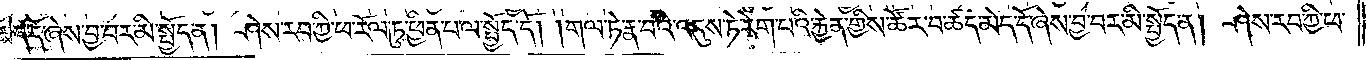མེད་དོ་ཞེས་བྱ་བར་མི་སྤྱོད་ན། ཤེས་རབ་ཀྱི་ཕ་རོལ་ཏུ་ཕྱིན་པ་ལ་སྤྱོད་དོ། །གལ་ཏེ་རྣ་བའི་འདུས་ཏེ་རེག་པའི་རྐྱེན་གྱིས་ཚོར་བ་ཚད་མེད་དོ་ཞེས་བྱ་བར་མི་སྤྱོད་ན། ཤེས་རབ་ཀྱི་ཕ་
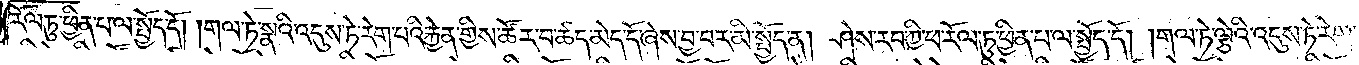རོལ་ཏུ་ཕྱིན་པ་ལ་སྤྱོད་དོ། །གལ་ཏེ་སྣའི་འདུས་ཏེ་རེག་པའི་རྐྱེན་གྱིས་ཚོར་བ་ཚད་མེད་དོ་ཞེས་བྱ་བར་མི་སྤྱོད་ན། ཤེས་རབ་ཀྱི་ཕ་རོལ་ཏུ་ཕྱིན་པ་ལ་སྤྱོད་དོ། །གལ་ཏེ་ལྕེའི་འདུས་ཏེ་རེག་
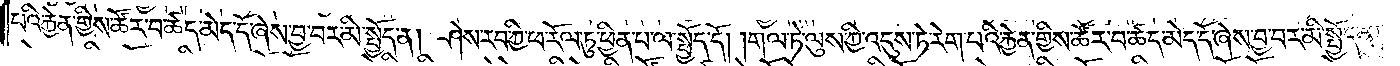པའི་རྐྱེན་གྱིས་ཚོར་བ་ཚད་མེད་དོ་ཞེས་བྱ་བར་མི་སྤྱོད་ན། ཤེས་རབ་ཀྱི་ཕ་རོལ་ཏུ་ཕྱིན་པ་ལ་སྤྱོད་དོ། །གལ་ཏེ་ལུས་ཀྱི་འདུས་ཏེ་རེག་པའི་རྐྱེན་གྱིས་ཚོར་བ་ཚད་མེད་དོ་ཞེས་བྱ་བར་མི་སྤྱོད་ན།
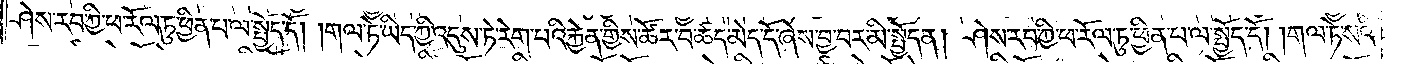ཤེས་རབ་ཀྱི་ཕ་རོལ་ཏུ་ཕྱིན་པ་ལ་སྤྱོད་དོ། །གལ་ཏེ་ཡིད་ཀྱི་འདུས་ཏེ་རེག་པའི་རྐྱེན་གྱིས་ཚོར་བ་ཚད་མེད་དོ་ཞེས་བྱ་བར་མི་སྤྱོད་ན། ཤེས་རབ་ཀྱི་ཕ་རོལ་ཏུ་ཕྱིན་པ་ལ་སྤྱོད་དོ། །གལ་ཏེ་སའི་
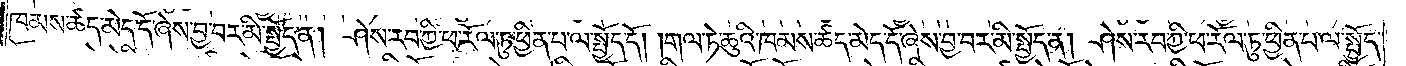ཁམས་ཚད་མེད་དོ་ཞེས་བྱ་བར་མི་སྤྱོད་ན། ཤེས་རབ་ཀྱི་ཕ་རོལ་ཏུ་ཕྱིན་པ་ལ་སྤྱོད་དོ། །གལ་ཏེ་ཆུའི་ཁམས་ཚད་མེད་དོ་ཞེས་བྱ་བར་མི་སྤྱོད་ན། ཤེས་རབ་ཀྱི་ཕ་རོལ་ཏུ་ཕྱིན་པ་ལ་སྤྱོད་
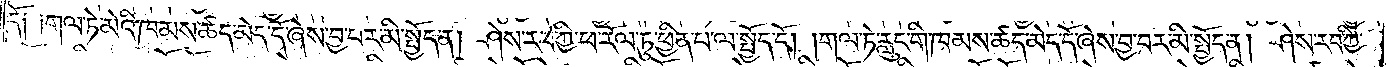དོ༑ ༑གལ་ཏེ་མེའི་ཁམས་ཚད་མེད་དོ་ཞེས་བྱ་བར་མི་སྤྱོད་ན། ཤེས་རབ་ཀྱི་ཕ་རོལ་ཏུ་ཕྱིན་པ་ལ་སྤྱོད་དོ། །གལ་ཏེ་རླུང་གི་ཁམས་ཚད་མེད་དོ་ཞེས་བྱ་བར་མི་སྤྱོད་ན། ཤེས་རབ་ཀྱི་
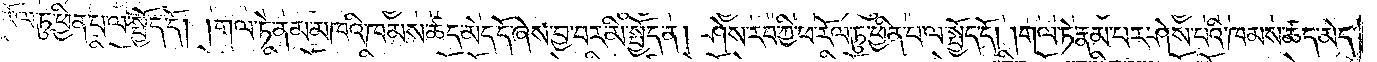ཕ་རོལ་ཏུ་ཕྱིན་པ་ལ་སྤྱོད་དོ། །གལ་ཏེ་ནམ་མཁའི་ཁམས་ཚད་མེད་དོ་ཞེས་བྱ་བར་མི་སྤྱོད་ན། ཤེས་རབ་ཀྱི་ཕ་རོལ་ཏུ་ཕྱིན་པ་ལ་སྤྱོད་དོ། །གལ་ཏེ་རྣམ་པར་ཤེས་པའི་ཁམས་ཚད་མེད་
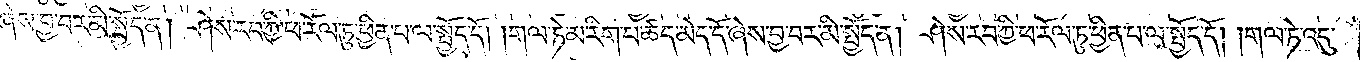དོ་ཞེས་བྱ་བར་མི་སྤྱོད་ན། ཤེས་རབ་ཀྱི་ཕ་རོལ་ཏུ་ཕྱིན་པ་ལ་སྤྱོད་དོ། །གལ་ཏེ་མ་རིག་པ་ཚད་མེད་དོ་ཞེས་བྱ་བར་མི་སྤྱོད་ན། ཤེས་རབ་ཀྱི་ཕ་རོལ་ཏུ་ཕྱིན་པ་ལ་སྤྱོད་དོ། །གལ་ཏེ་འདུ་
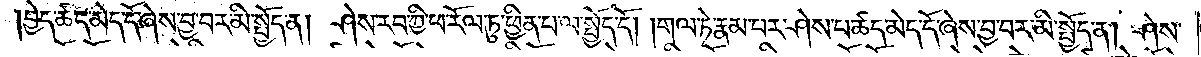བྱེད་ཚད་མེད་དོ་ཞེས་བྱ་བར་མི་སྤྱོད་ན། ཤེས་རབ་ཀྱི་ཕ་རོལ་ཏུ་ཕྱིན་པ་ལ་སྤྱོད་དོ། །གལ་ཏེ་རྣམ་པར་ཤེས་པ་ཚད་མེད་དོ་ཞེས་བྱ་བར་མི་སྤྱོད་ན། ཤེས་
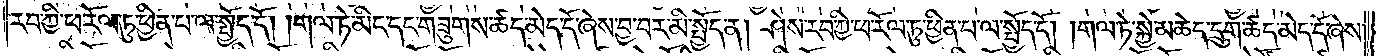རབ་ཀྱི་ཕ་རོལ་ཏུ་ཕྱིན་པ་ལ་སྤྱོད་དོ། །གལ་ཏེ་མིང་དང་གཟུགས་ཚད་མེད་དོ་ཞེས་བྱ་བར་མི་སྤྱོད་ན། ཤེས་རབ་ཀྱི་ཕ་རོལ་ཏུ་ཕྱིན་པ་ལ་སྤྱོད་དོ། །གལ་ཏེ་སྐྱེ་མཆེད་དྲུག་ཚད་མེད་དོ་ཞེས་
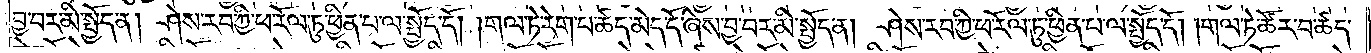བྱ་བར་མི་སྤྱོད་ན། ཤེས་རབ་ཀྱི་ཕ་རོལ་ཏུ་ཕྱིན་པ་ལ་སྤྱོད་དོ། །གལ་ཏེ་རེག་པ་ཚད་མེད་དོ་ཞེས་བྱ་བར་མི་སྤྱོད་ན། ཤེས་རབ་ཀྱི་ཕ་རོལ་ཏུ་ཕྱིན་པ་ལ་སྤྱོད་དོ། །གལ་ཏེ་ཚོར་བ་ཚད་
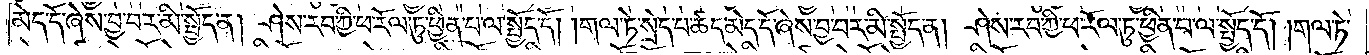མེད་དོ་ཞེས་བྱ་བར་མི་སྤྱོད་ན། ཤེས་རབ་ཀྱི་ཕ་རོལ་ཏུ་ཕྱིན་པ་ལ་སྤྱོད་དོ། །གལ་ཏེ་སྲེད་པ་ཚད་མེད་དོ་ཞེས་བྱ་བར་མི་སྤྱོད་ན། ཤེས་རབ་ཀྱི་ཕ་རོལ་ཏུ་ཕྱིན་པ་ལ་སྤྱོད་དོ། །གལ་ཏེ་
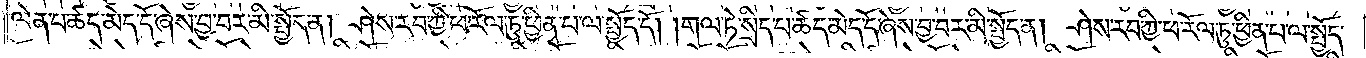ལེན་པ་ཚད་མེད་དེ་ཞེས་བྱ་བར་མི་སྤྱོད་ན། ཤེས་རབ་ཀྱི་ཕ་རོལ་ཏུ་ཕྱིན་པ་ལ་སྤྱོད་དོ། །གལ་ཏེ་སྲིད་པ་ཚད་མེད་དོ་ཞེས་བྱ་བར་མི་སྤྱོད་ན། ཤེས་རབ་ཀྱི་ཕ་རོལ་ཏུ་ཕྱིན་པ་ལ་སྤྱོད་
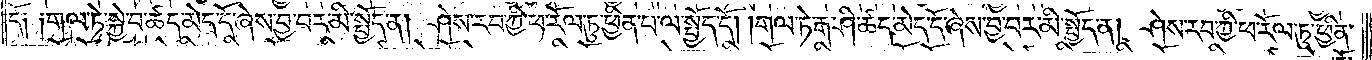དོ༑ ༑གལ་ཏེ་སྐྱེ་བ་ཚད་མེད་དོ་ཞེས་བྱ་བར་མི་སྤྱོད་ན། ཤེས་རབ་ཀྱི་ཕ་རོལ་ཏུ་ཕྱིན་པ་ལ་སྤྱོད་དོ། །གལ་ཏེ་རྒ་ཤི་ཚད་མེད་དོ་ཞེས་བྱ་བར་མི་སྤྱོད་ན། ཤེས་རབ་ཀྱི་ཕ་རོལ་ཏུ་ཕྱིན་
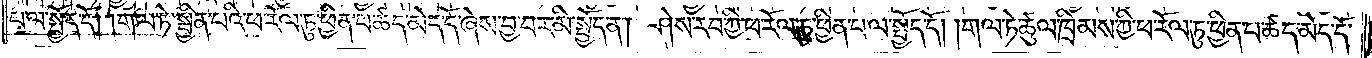པ་ལ་སྤྱོད་དོ། །གལ་ཏེ་སྦྱིན་པའི་ཕ་རོལ་ཏུ་ཕྱིན་པ་ཚད་མེད་དོ་ཞེས་བྱ་བར་མི་སྤྱོད་ན། ཤེས་རབ་ཀྱི་ཕ་རོལ་ཏུ་ཕྱིན་པ་ལ་སྤྱོད་དོ། །གལ་ཏེ་ཚུལ་ཁྲིམས་ཀྱི་ཕ་རོལ་ཏུ་ཕྱིན་པ་ཚད་མེད་དོ་
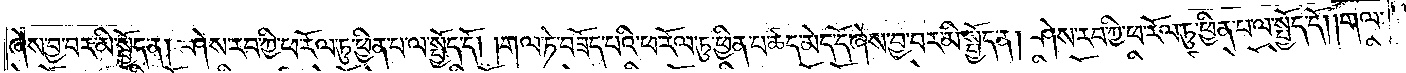ཞེས་བྱ་བར་མི་སྤྱོད་ན། ཤེས་རབ་ཀྱི་ཕ་རོལ་ཏུ་ཕྱིན་པ་ལ་སྤྱོད་དོ། །གལ་ཏེ་བཟོད་པའི་ཕ་རོལ་ཏུ་ཕྱིན་པ་ཚད་མེད་དོ་ཞེས་བྱ་བར་མི་སྤྱོད་ན། ཤེས་རབ་ཀྱི་ཕ་རོལ་ཏུ་ཕྱིན་པ་ལ་སྤྱོད་དོ། །གལ་
